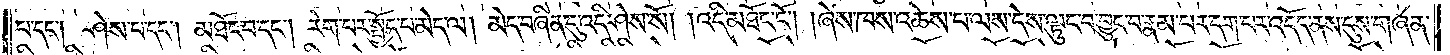པ་དང༌། ཤེས་པ་དང༌། མཐོང་བ་དང༌། རེག་པར་སྤྱོད་པ་མེད་ལ། མེད་བཞིན་དུ་འདི་ཤེས་སོ། །འདི་མཐོང་ངོ༌། །ཞེས་ཁས་འཆེས་པ་ལས་དེས་ལྟུང་བ་བྱུང་བ་རྣམ་པར་དག་པར་འདོད་ནས་དུས་གཞན་
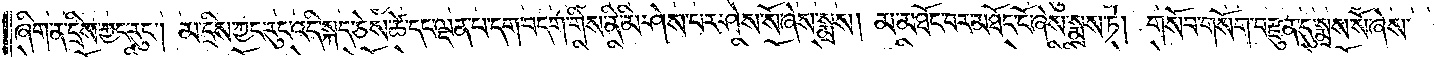ཞིག་ན་དྲིས་ཀྱང་རུང༌། མ་དྲིས་ཀྱང་རུང་འདི་སྐད་ཅེས་ཚེ་དང་ལྡན་པ་དག་བདག་གིས་ནི་མི་ཤེས་པར་ཤེས་སོ་ཞེས་སྨྲས། མ་མཐོང་བར་མཐོང་ངོ་ཞེས་སྨྲས་ཏེ། གསོབ་གསོག་བརྫུན་དུ་སྨྲས་སོ་ཞེས་
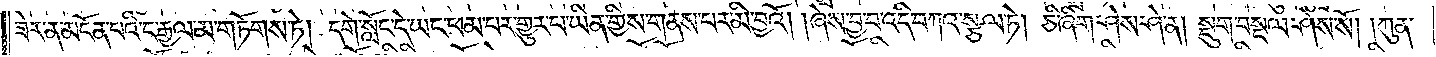ཟེར་ན་མངོན་པའི་ང་རྒྱལ་མ་གཏོགས་ཏེ། དགེ་སློང་དེ་ཡང་ཕམ་པར་གྱུར་པ་ཡིན་གྱིས་གནས་པར་མི་བྱའོ། །ཞེས་བྱ་བ་འདི་བཀའ་སྩལ་ཏེ། ཅི་ཞིག་ཤེས་ཤེ་ན། སྡུག་བསྔལ་ཤེས་སོ། །ཀུན་
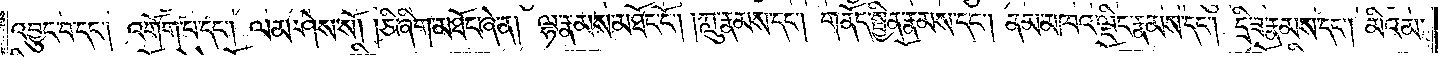འབྱུང་བ་དང༌། འགོག་པ་དང༌། ལམ་ཤེས་སོ། །ཅི་ཞིག་མཐོང་ཞེ་ན། ལྷ་རྣམས་མཐོང་ངོ༌། །ཀླུ་རྣམས་དང༌། གནོད་སྦྱིན་རྣམས་དང༌། ནམ་མཁའ་ལྡིང་རྣམས་དང༌། དྲི་ཟ་རྣམས་དང༌། མིའམ་
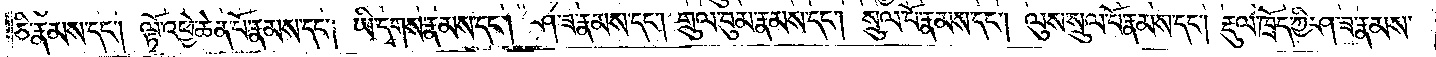ཅི་རྣམས་དང༌། ལྟོ་འཕྱེ་ཆེན་པོ་རྣམས་དང༌། ཡི་དྭགས་རྣམས་དང༌། ཤ་ཟ་རྣམས་དང༌། གྲུལ་བུམ་རྣམས་དང༌། སྲུལ་པོ་རྣམས་དང༌། ལུས་སྲུལ་པོ་རྣམས་དང༌། རྡུལ་ཁྲོད་ཀྱི་ཤ་ཟ་རྣམས་
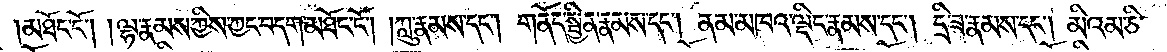མཐོང་ངོ༌། །ལྷ་རྣམས་ཀྱིས་ཀྱང་བདག་མཐོང་ངོ༌། །ཀླུ་རྣམས་དང༌། གནོད་སྦྱིན་རྣམས་དང༌། ནམ་མཁའ་ལྡིང་རྣམས་དང༌། དྲི་ཟ་རྣམས་དང༌། མིའམ་ཅི་
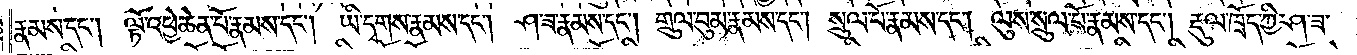རྣམས་དང༌། ལྟོ་འཕྱེ་ཆེན་པོ་རྣམས་དང༌། ཡི་དྭགས་རྣམས་དང༌། ཤ་ཟ་རྣམས་དང༌། གྲུལ་བུམ་རྣམས་དང༌། སྲུལ་པོ་རྣམས་དང༌། ལུས་སྲུལ་པོ་རྣམས་དང༌། རྡུལ་ཁྲོད་ཀྱི་ཤ་ཟ་
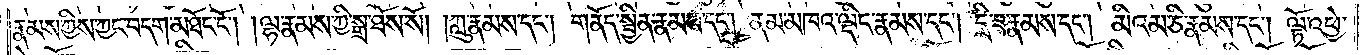རྣམས་ཀྱིས་ཀྱང་བདག་མཐོང་ངོ༌། །ལྷ་རྣམས་ཀྱི་སྒྲ་ཐོས་སོ། །ཀླུ་རྣམས་དང༌། གནོད་སྦྱིན་རྣམས་དང༌། ནམ་མཁའ་ལྡིང་རྣམས་དང༌། དྲི་ཟ་རྣམས་དང༌། མིའམ་ཅི་རྣམས་དང༌། ལྟོ་འཕྱེ་
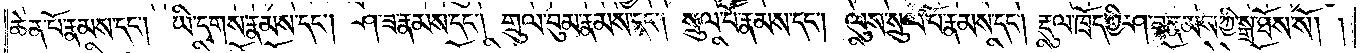ཆེན་པོ་རྣམས་དང༌། ཡི་དྭགས་རྣམས་དང༌། ཤ་ཟ་རྣམས་དང༌། གྲུལ་བུམ་རྣམས་དང༌། སྲུལ་པོ་རྣམས་དང༌། ལུས་སྲུལ་པོ་རྣམས་དང༌། རྡུལ་ཁྲོད་ཀྱི་ཤ་ཟ་རྣམས་ཀྱི་སྒྲ་ཐོས་སོ། །
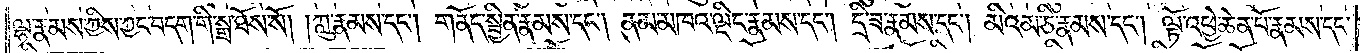ལྷ་རྣམས་ཀྱིས་ཀྱང་བདག་གི་སྒྲ་ཐོས་སོ། །ཀླུ་རྣམས་དང༌། གནོད་སྦྱིན་རྣམས་དང༌། ནམ་མཁའ་ལྡིང་རྣམས་དང༌། དྲི་ཟ་རྣམས་དང༌། མིའམ་ཅི་རྣམས་དང༌། ལྟོ་འཕྱེ་ཆེན་པོ་རྣམས་དང་
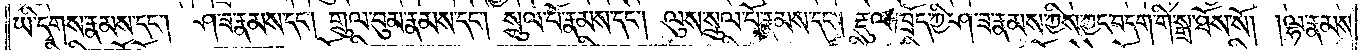ཡི་དྭགས་རྣམས་དང༌། ཤ་ཟ་རྣམས་དང༌། གྲུལ་བུམ་རྣམས་དང༌། སྲུལ་པོ་རྣམས་དང༌། ལུས་སྲུལ་པོ་རྣམས་དང༌། རྡུལ་ཁྲོད་ཀྱི་ཤ་ཟ་རྣམས་ཀྱིས་ཀྱང་བདག་གི་སྒྲ་ཐོས་སོ། །ལྷ་རྣམས་
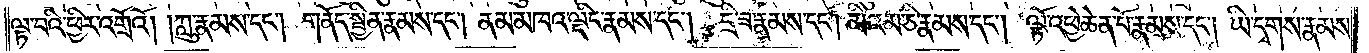ལྟ་བའི་ཕྱིར་འགྲོའོ། །ཀླུ་རྣམས་དང༌། གནོད་སྦྱིན་རྣམས་དང༌། ནམ་མཁའ་ལྡིང་རྣམས་དང༌། དྲི་ཟ་རྣམས་དང༌། མིའམ་ཅི་རྣམས་དང༌། ལྟོ་འཕྱེ་ཆེན་པོ་རྣམས་དང༌། ཡི་དྭགས་རྣམས་
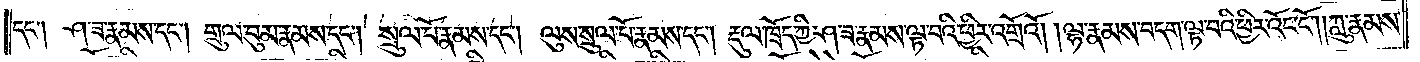དང༌། ཤ་ཟ་རྣམས་དང༌། གྲུལ་བུམ་རྣམས་དང༌། སྲུལ་པོ་རྣམས་དང༌། ལུས་སྲུལ་པོ་རྣམས་དང༌། རྡུལ་ཁྲོད་ཀྱི་ཤ་ཟ་རྣམས་ལྟ་བའི་ཕྱིར་འགྲོའོ། །ལྷ་རྣམས་བདག་ལྟ་བའི་ཕྱིར་འོང་ངོ༌༎ཀླུ་རྣམས་
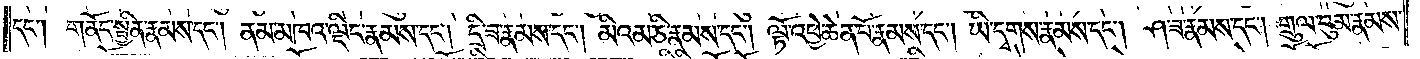དང༌། གནོད་སྦྱིན་རྣམས་དང༌། ནམ་མཁའ་ལྡིང་རྣམས་དང༌། དྲི་ཟ་རྣམས་དང༌། མིའམ་ཅི་རྣམས་དང༌། ལྟོ་འཕྱེ་ཆེན་པོ་རྣམས་དང༌། ཡི་དྭགས་རྣམས་དང༌། ཤ་ཟ་རྣམས་དང༌། གྲུལ་བུམ་རྣམས་
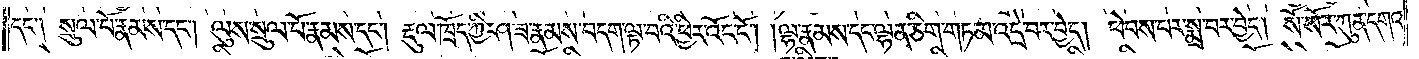དང༌། སྲུལ་པོ་རྣམས་དང༌། ལུས་སྲུལ་པོ་རྣམས་དང༌། རྡུལ་ཁྲོད་ཀྱི་ཤ་ཟ་རྣམས་བདག་ལྟ་བའི་ཕྱིར་འོང་ངོ༌། །ལྷ་རྣམས་དང་ལྷན་ཅིག་གཏམ་འདྲེ་བར་བྱེད། ཕེབས་པར་སྨྲ་བར་བྱེད། སོ་སོར་ཀུན་དགའ་
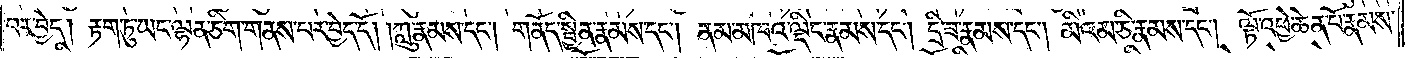བར་བྱེད། རྟག་ཏུ་ཡང་ལྷན་ཅིག་གནས་པར་བྱེད་དོ། །ཀླུ་རྣམས་དང༌། གནོད་སྦྱིན་རྣམས་དང༌། ནམ་མཁའ་ལྡིང་རྣམས་དང༌། དྲི་ཟ་རྣམས་དང༌། མིའམ་ཅི་རྣམས་དང༌། ལྟོ་འཕྱེ་ཆེན་པོ་རྣམས་
